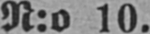N:o 10.
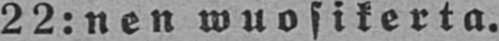22: nen wuosikerta.
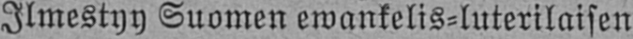Ilmestyy Suomen ewankelis-luterilaisen
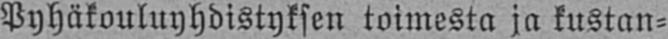Pyhäkouluyhdistyksen toimesta ja kustan-
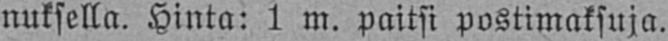nuksella. Hinta: 1 m. paitsi postimaksuja.
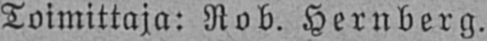Toimittaja: Rob. Hernberg.
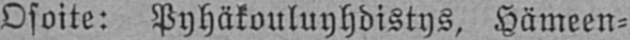Osoite: Pyhäkouluyhdistys, Hämeen-
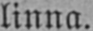linna.
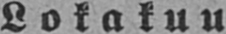Lokakuu
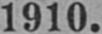1910.
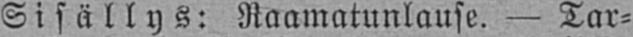Sisällys: Raamatunlause. — Tar-
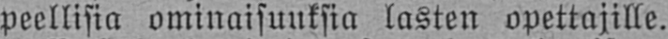peellisia ominaisuuksia lasten opettajille.
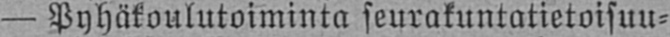— Pyhäkoulutoiminta seurakuntatietoisuu-
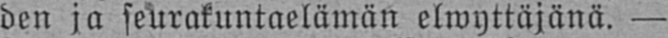den ja seurakuntaelämän elwyttäjänä. —
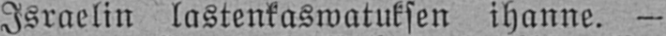Israelin lastenkaswatuksen ihanne. —
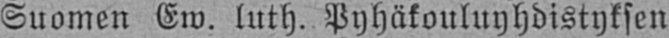Suomen Ew. luth. Pyhäkouluyhdistyksen
